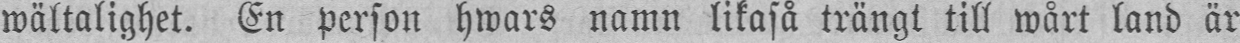wältalighet. En person hwars namn likaså trängt till wårt land är
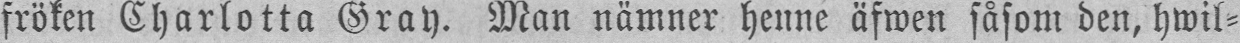fröken Charlotta Gray. Man nämner henne äfwen såsom den, hwil-
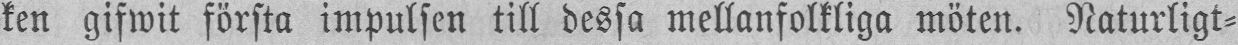ken gifwit första impulsen till dessa mellanfolkliga möten. Naturligt-
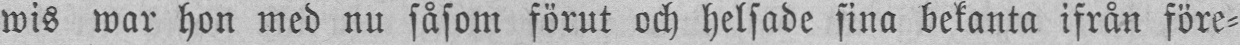wis war hon med nu såsom förut och helsade sina bekanta ifrån före-
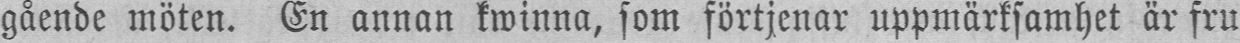gående möten. En annan kwinna, som förtjenar uppmärksamhet är fru
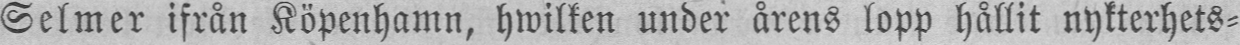Selmer ifrån Köpenhamn, hwilken under årens lopp hållit nykterhets-
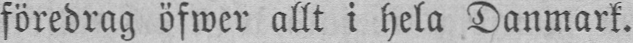föredrag öfwer allt i hela Danmark.
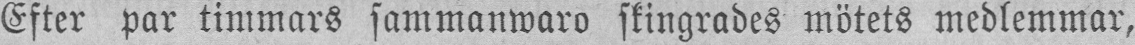Efter par timmars sammanwaro skingrades mötets medlemmar,
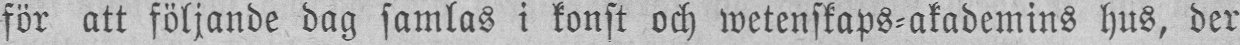för att följande dag samlas i konst och wetenskaps-akademins hus, der
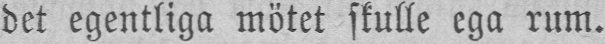det egentliga mötet skulle ega rum.
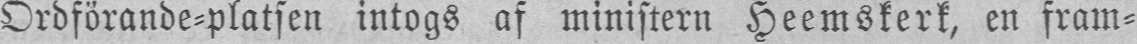Ordförande-platsen intogs af ministern Heemskerk, en fram-
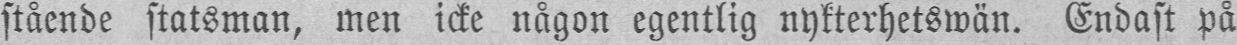stående statsman, men icke någon egentlig nykterhetswän. Endast på
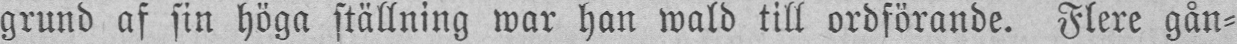grund af sin höga ställning war han wald till ordförande. Flere gån-
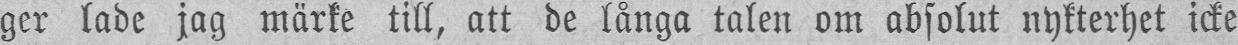ger lade jag märke till, att de långa talen om absolut nykterhet icke
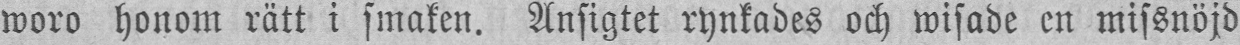woro honom rätt i smaken. Ansigtet rynkades och wisade en missnöjd
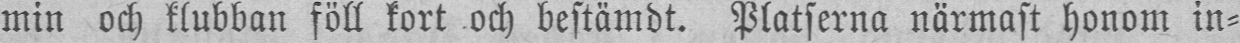min och klubban föll kort och bestämdt. Platserna närmast honom in-
